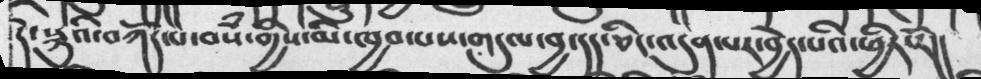དེ་སྐུའི་བཀོད་པ་བསཾ་གྱིས་མི་ཁྱབ་པས་གདུལ་བྱ་དད་ཅིང་འདུན་པར་བྱེད་པའི་ཕྱིར་རོ།།
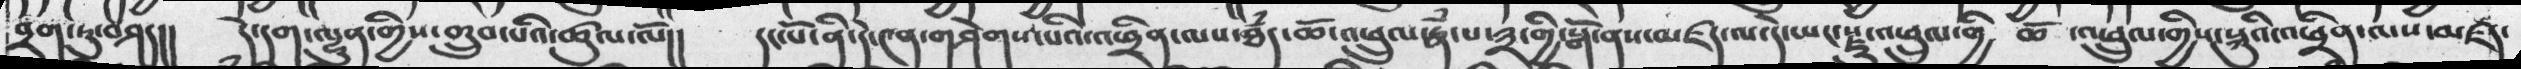བྲག་ཏུ་བཤད།། དེ་དག་ལྷུན་གྱིས་གྲུབ་པའི་ཚུལ་ལོ།།  དང་པོ་ནི་དེ་༤ན་གཤེགས་པའི་འཕྲིན་ལས་ཐཾད་ཆོ་འཕྲུལ་རྣཾ་པ་༣་གྱི་སྒོ་ནས་མཛད་ལ་དེ་ཡང་རྫུ་འཕྲུལ་གྱི  ཆོ ་འཕྲུལ་གྱིས་སྐུའི་འཕྲིན་ལས་མཛད་
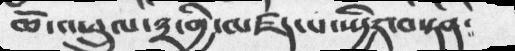ཆོ་འཕྲུལ་༣་གྱི་མཛད་པ་སྤྱིར་བསྟན་
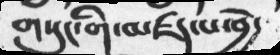གསུང་གི་མཛད་པ་བྱེ་
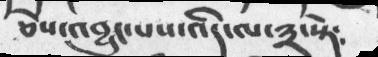ཅེས་འབྱུང་པས་འདི་ལ་༣་སྟེ༴
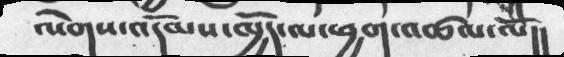ལེགས་འདོམས་ཁྱོད་ལ་ཕྱག་འཚལ་ལོ།།
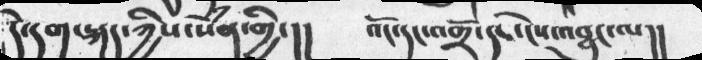དེ་དག་སྐད་ཀྱིས་སེཾན་གྱི་།།   འོང་དང་འགྲོ་དང་ངེས་འབྱུང་ལ།།
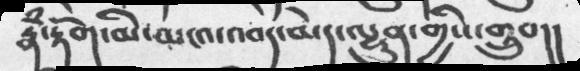རྣཾ་རྟོག་མི་མངའ་འབད་མེད་ལྷུན་གྱིས་གྲུབ།།
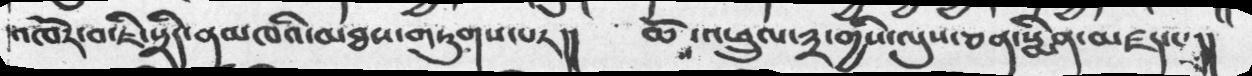འཁོར་བ་ཇི་སྲིད་ནམཁའི་མཐས་གཏུགས་པར།།   ཆོ་འཕྲུལ་༣་གྱིས་ལུས་ཅན་སྨིན་མཛད་པ།།
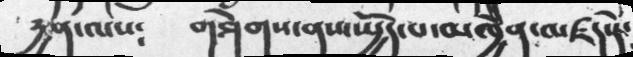དྱན་ལས༴  གཤེགས་ནས་སྤྱོད་པ་མཁྱེན་མཛད་དེ་
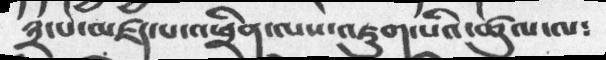༣་པ་མཛད་པ་འཕྲིནལས་འཇུག་པའི་ཚུལ་ལ༴
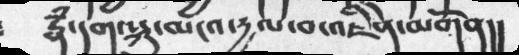རྣཾ་དག་སྐུ་མངའ་དྱལ་བ་འཇིེན་མགོན།།
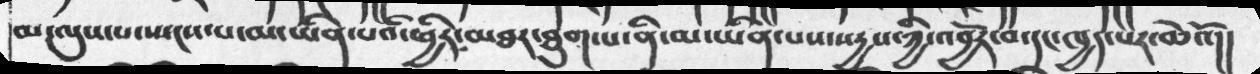མ་ལུས་པ་སྤངས་པ་མ་ཡིན་པའི་ཕྱིར་མཐར་ཐུག་པ་ནི་མ་ཡིན་པས་སདྱས་ཀྱི་འབྱོར་བ་དང་ཁྱད་པར་ཆེའོ།།
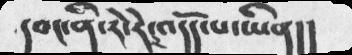དབང་ནི་རེ་རེར་འདོད་པ་ཡིན།།
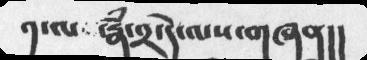༡་ལ་རྣཾ  ་༢་དེ་ལས་གཞན།།
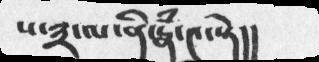ས་༣་ལ་ནི་རྣཾ་༤་སྟེ།།
